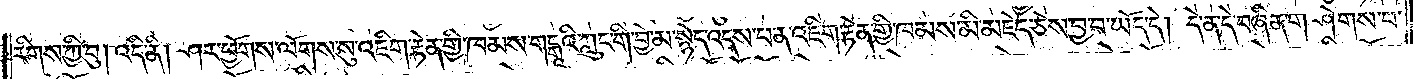རིགས་ཀྱི་བུ། འདི་ནི། ཤར་ཕྱོགས་ལོགས་སུ་འཇིག་རྟེན་གྱི་ཁམས་གངྒཱའི་ཀླུང་གི་བྱེ་མ་སྙེད་འདས་པ་ན་འཇིག་རྟེན་གྱི་ཁམས་མི་མཇེད་ཅེས་བྱ་བ་ཡོད་དེ། དེ་ན་དེ་བཞིན་གཤེགས་པ་
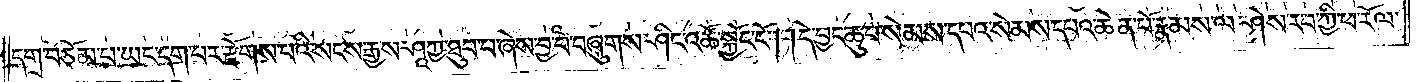དགྲ་བཅོམ་པ་ཡང་དག་པར་རྫོགས་པའི་སངས་རྒྱས་ཤཱཀྱ་ཐུབ་པ་ཞེས་བྱ་བ་བཞུགས་ཤིང་འཚོ་སྐྱོང་ངོ༌། །དེ་བྱང་ཆུབ་སེམས་དཔའ་སེམས་དཔའ་ཆེན་པོ་རྣམས་ལ་ཤེས་རབ་ཀྱི་ཕ་རོལ་
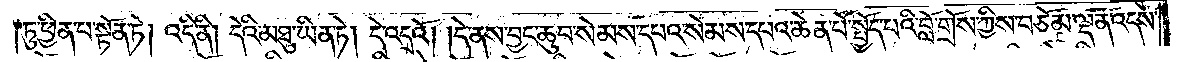ཏུ་ཕྱིན་པ་སྟོན་ཏེ། འདི་ནི། དེའི་མཐུ་ཡིན་ཏེ། དེ་འདྲའོ། །དེ་ནས་བྱང་ཆུབ་སེམས་དཔའ་སེམས་དཔའ་ཆེན་པོ་སྤྱོད་པའི་བློ་གྲོས་ཀྱིས་བཅོམ་ལྡན་འདས་
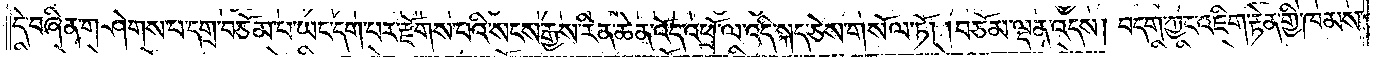དེ་བཞིན་གཤེགས་པ་དགྲ་བཅོམ་པ་ཡང་དག་པར་རྫོགས་པའི་སངས་རྒྱས་རིན་ཆེན་འོད་འཕྲོ་ལ་འདི་སྐད་ཅེས་གསོལ་ཏོ། །བཅོམ་ལྡན་འདས། བདག་ཀྱང་འཇིག་རྟེན་གྱི་ཁམས་
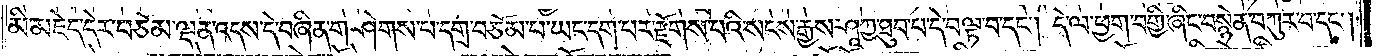མི་མཇེད་དེར་བཅོམ་ལྡན་འདས་དེ་བཞིན་གཤེགས་པ་དགྲ་བཅོམ་པ་ཡང་དག་པར་རྫོགས་པའི་སངས་རྒྱས་ཤཱཀྱ་ཐུབ་པ་དེ་བལྟ་བ་དང༌། དེ་ལ་ཕྱག་བགྱི་ཞིང་བསྙེན་བཀུར་བ་དང༌།
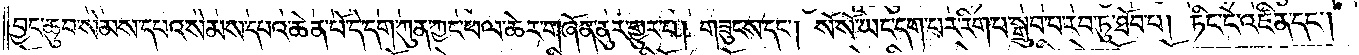བྱང་ཆུབ་སེམས་དཔའ་སེམས་དཔའ་ཆེན་པོ་དེ་དག་ཀུན་ཀྱང་ཕལ་ཆེར་གཞོན་ནུར་གྱུར་པ། གཟུངས་དང༌། སོ་སོ་ཡང་དག་པར་རིག་པ་སྒྲུབ་པ་རབ་ཏུ་ཐོབ་པ། ཏིང་ངེ་འཛིན་དང༌།
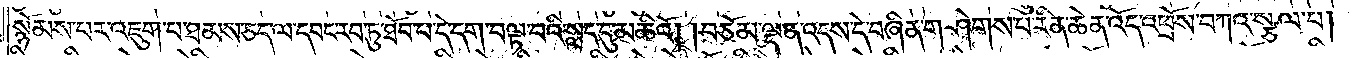སྙོམས་པར་འཇུག་པ་ཐམས་ཅད་ལ་དབང་རབ་ཏུ་ཐོབ་པ་དེ་དག་བལྟ་བའི་སླད་དུ་མཆིའོ། །བཅོམ་ལྡན་འདས་དེ་བཞིན་གཤེགས་པ་རིན་ཆེན་འོད་འཕྲོས་བཀའ་སྩལ་པ།
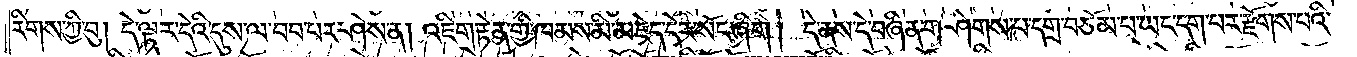རིགས་ཀྱི་བུ། དེ་ལྟར་དེའི་དུས་ལ་བབ་པར་ཤེས་ན། འཇིག་རྟེན་གྱི་ཁམས་མི་མཇེད་དེར་སོང་ཞིག། དེ་ནས་དེ་བཞིན་གཤེགས་པ་དགྲ་བཅོམ་པ་ཡང་དག་པར་རྫོགས་པའི་
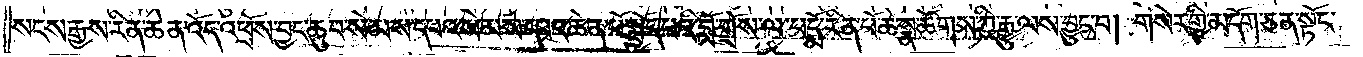སངས་རྒྱས་རིན་ཆེན་འོད་འཕྲོས་བྱང་ཆུབ་སེམས་དཔའ་སེམས་དཔའ་ཆེན་པོ་སྤྱོད་པའི་བློ་གྲོས་ལ་པདྨོ་རིན་པོ་ཆེ་སྣ་ཚོགས་ཀྱི་རྒྱུ་ལས་བྱུང་བ། གསེར་གྱི་མདོག་ཅན་སྟོང་
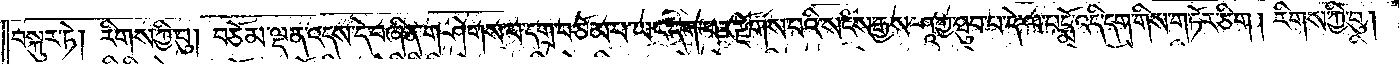བསྐུར་ཏེ། རིགས་ཀྱི་བུ། བཅོམ་ལྡན་འདས་དེ་བཞིན་གཤེགས་པ་དགྲ་བཅོམ་པ་ཡང་དག་པར་རྫོགས་པའི་སངས་རྒྱས་ཤཱཀྱ་ཐུབ་པ་དེ་ལ་པདྨོ་འདི་དག་གིས་གཏོར་ཅིག། རིགས་ཀྱི་བུ།
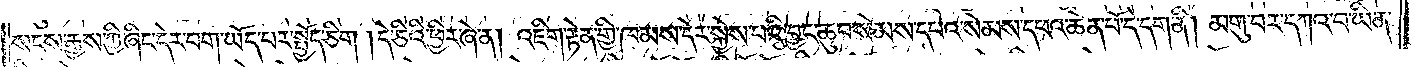སངས་རྒྱས་ཀྱི་ཞིང་དེར་བག་ཡོད་པར་སྤྱོད་ཅིག །དེ་ཅིའི་ཕྱིར་ཞེ་ན། འཇིག་རྟེན་གྱི་ཁམས་དེར་སྐྱེས་བའི་བྱང་ཆུབ་སེམས་དཔའ་སེམས་དཔའ་ཆེན་པོ་དེ་དག་ནི། མགུ་བར་དཀའ་བ་ཡིན་
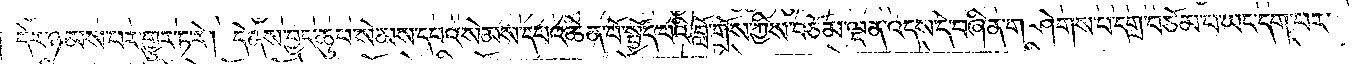དེར་ཉམས་པར་གྱུར་ཏ་རེ། དེ་ནས་བྱང་ཆུབ་སེམས་དཔའ་སེམས་དཔའ་ཆེན་པོ་སྤྱོད་པའི་བློ་གྲོས་ཀྱིས་བཅོམ་ལྡན་འདས་དེ་བཞིན་གཤེགས་པ་དགྲ་བཅོམ་པ་ཡང་དག་པར་
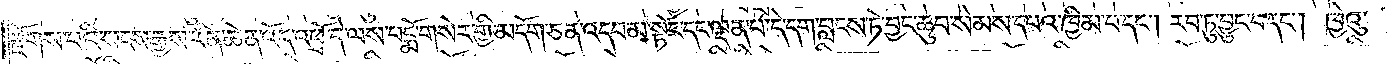རྫོགས་པའི་སངས་རྒྱས་རིན་ཆེན་འོད་འཕྲོ་དེ་ལས་པདྨོ་གསེར་གྱི་མདོག་ཅན་འདབ་མ་སྟོང་དང་ལྡན་པ་དེ་དག་བླངས་ཏེ་བྱང་ཆུབ་སེམས་དཔའ་ཁྱིམ་པ་དང༌། རབ་ཏུ་བྱུང་བ་དང༌། ཁྱེའུ་
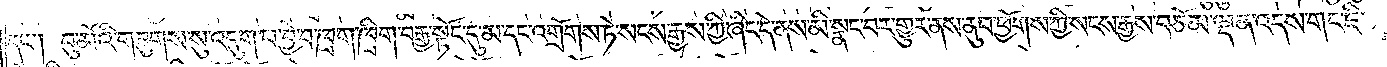དང༌། བུ་མོའི་གཟུགས་སུ་འདུག་པ་བྱེ་བ་ཁྲག་ཁྲིག་བརྒྱ་སྟོང་དུ་མ་དང་འགྲོགས་ཏེ་སངས་རྒྱས་ཀྱི་ཞིང་དེ་ནས་མི་སྣང་བར་གྱུར་ནས་ནུབ་ཕྱོགས་ཀྱི་སངས་རྒྱས་བཅོམ་ལྡན་འདས་གང་ཇི་
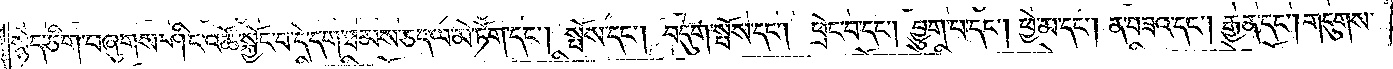སྙེད་ཅིག་བཞུགས་ཤིང་འཚོ་སྐྱོང་བ་དེ་དག་ཐམས་ཅད་ལ་མེ་ཏོག་དང༌། སྤོས་དང༌། བདུག་སྤོས་དང༌། ཕྲེང་བ་དང༌། བྱུག་པ་དང༌། ཕྱེ་མ་དང༌། ན་བཟའ་དང༌། རྒྱན་དང༌། གདུགས་
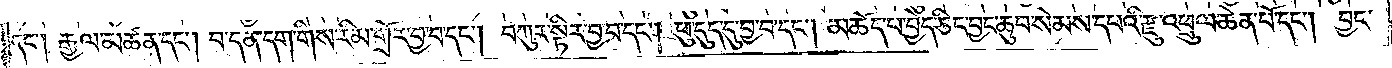དང༌། རྒྱལ་མཚན་དང༌། བ་དན་དག་གིས་རིམ་གྲོར་བྱ་བ་དང༌། བཀུར་སྟིར་བྱ་བ་དང༌། ཕུ་དུད་དུ་བྱ་བ་དང༌། མཆོད་པ་བྱེད་ཅིང་བྱང་ཆུབ་སེམས་དཔའི་རྫུ་འཕྲུལ་ཆེན་པོ་དང༌། བྱང་
